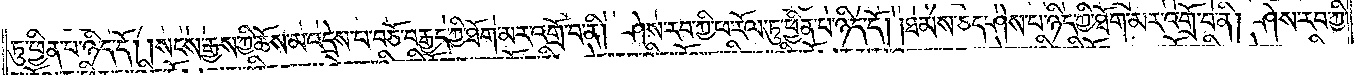ཏུ་ཕྱིན་པ་ཉིད་དོ། །སངས་རྒྱས་ཀྱི་ཆོས་མ་འདྲེས་བ་བཅོ་བརྒྱད་ཀྱི་ཐོག་མར་འགྲོ་བ་ནི། ཤེས་རབ་ཀྱི་ཕ་རོལ་ཏུ་ཕྱིན་པ་ཉིད་དོ། །ཐམས་ཅད་ཤེས་པ་ཉིད་ཀྱི་ཐོག་མར་འགྲོ་བ་ནི། ཤེས་རབ་ཀྱི་
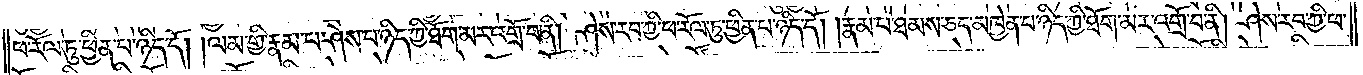ཕ་རོལ་ཏུ་ཕྱིན་པ་ཉིད་དོ། །ལམ་གྱི་རྣམ་པ་ཤེས་པ་ཉིད་ཀྱི་ཐོག་མར་འགྲོ་བ་ནི། ཤེས་རབ་ཀྱི་ཕ་རོལ་ཏུ་ཕྱིན་པ་ཉིད་དོ། །རྣམ་པ་ཐམས་ཅད་མཁྱེན་པ་ཉིད་ཀྱི་ཐོག་མར་འགྲོ་བ་ནི། ཤེས་རབ་ཀྱི་ཕ་
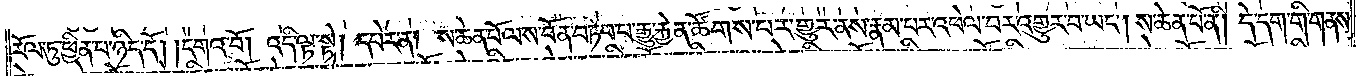རོལ་ཏུ་ཕྱིན་པ་ཉིད་དོ། །དགའ་བོ། འདི་ལྟ་སྟེ། དཔེར་ན། ས་ཆེན་པོ་ལ་ས་བོན་བཏབ་པ་རྒྱུ་རྐྱེན་ཚོགས་པར་གྱུར་ནས་རྣམ་པར་འཕེལ་བར་འགྱུར་བ་ཡང༌། ས་ཆེན་པོ་ནི། དེ་དག་གི་གནས་
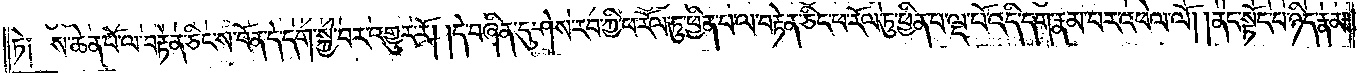ཏེ། ས་ཆེན་པོ་ལ་བརྟེན་ཅིང་ས་བོན་དེ་དག་སྐྱེ་བར་འགྱུར་རོ། །དེ་བཞིན་དུ་ཤེས་རབ་ཀྱི་ཕ་རོལ་ཏུ་ཕྱིན་པ་ལ་བརྟེན་ཅིང་ཕ་རོལ་ཏུ་ཕྱིན་པ་ལྔ་པོ་འདི་དག་རྣམ་པར་འཕེལ་ལོ། །ནང་སྟོང་པ་ཉིད་རྣམ་
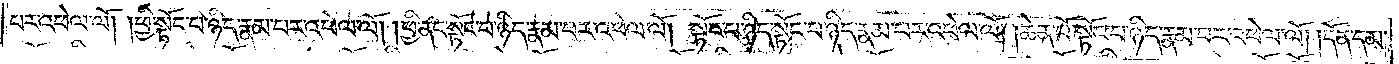པར་འཕེལ་ལོ། །ཕྱི་སྟོང་པ་ཉིད་རྣམ་པར་འཕེལ་ལོ། །ཕྱི་ནང་སྟོང་པ་ཉིད་རྣམ་པར་འཕེལ་ལོ། །སྟོང་པ་ཉིད་སྟོང་པ་ཉིད་རྣམ་པར་འཕེལ་ལོ། །ཆེན་པོ་སྟོང་པ་ཉིད་རྣམ་པར་འཕེལ་ལོ། །དོན་དམ་
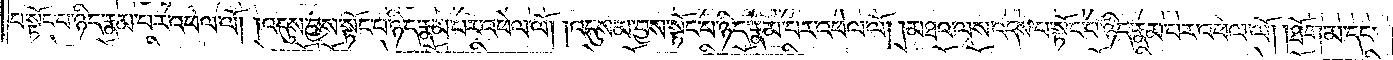པ་སྟོང་པ་ཉིད་རྣམ་པར་འཕེལ་ལོ། །འདུས་བྱས་སྟོང་པ་ཉིད་རྣམ་པར་འཕེལ་ལོ། །འདུས་མ་བྱས་སྟོང་པ་ཉིད་རྣམ་པར་འཕེལ་ལོ། །མཐའ་ལས་འདས་པ་སྟོང་པ་ཉིད་རྣམ་པར་འཕེལ་ལོ། །ཐོག་མ་དང་
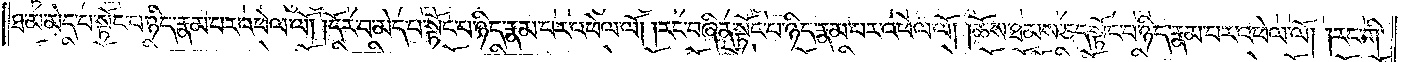ཐ་མ་མེད་པ་སྟོང་པ་ཉིད་རྣམ་པར་འཕེལ་ལོ། །དོར་བ་མེད་པ་སྟོང་པ་ཉིད་རྣམ་པར་འཕེལ་ལོ། །རང་བཞིན་སྟོང་པ་ཉིད་རྣམ་པར་འཕེལ་ལོ། །ཆོས་ཐམས་ཅད་སྟོང་པ་ཉིད་རྣམ་པར་འཕེལ་ལོ། །རང་གི་
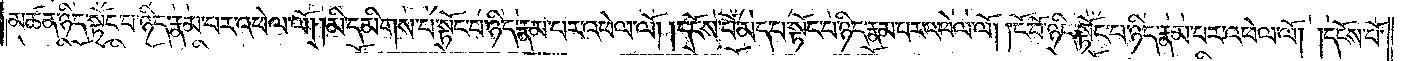མཚན་ཉིད་སྟོང་པ་ཉིད་རྣམ་པར་འཕེལ་ལོ། །མི་དམིགས་པ་སྟོང་པ་ཉིད་རྣམ་པར་འཕེལ་ལོ། །དངོས་པོ་མེད་པ་སྟོང་པ་ཉིད་རྣམ་པར་འཕེལ་ལོ། །ངོ་བོ་ཉིད་སྟོང་པ་ཉིད་རྣམ་པར་འཕེལ་ལོ། །དངོས་པོ་
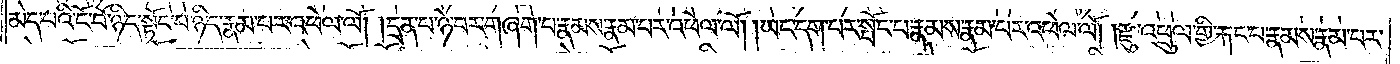མེད་པའི་ངོ་བོ་ཉིད་སྟོང་པ་ཉིད་རྣམ་པར་འཕེལ་ལོ། །དྲན་པ་ཉེ་བར་གཞག་པ་རྣམས་རྣམ་པར་འཕེལ་ལོ། །ཡང་དག་པར་སྤོང་བ་རྣམས་རྣམ་པར་འཕེལ་ལོ། །རྫུ་འཕྲུལ་གྱི་རྐང་པ་རྣམས་རྣམ་པར་
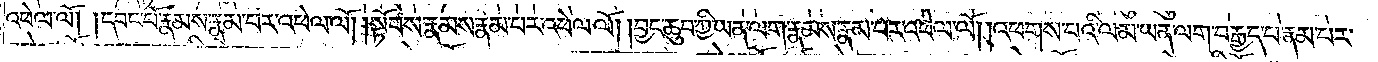འཕེལ་ལོ། །དབང་པོ་རྣམས་རྣམ་པར་འཕེལ་ལོ། །སྟོབས་རྣམས་རྣམ་པར་འཕེལ་ལོ། །བྱང་ཆུབ་ཀྱི་ཡན་ལག་རྣམས་རྣམ་པར་འཕེལ་ལོ། །འཕགས་པའི་ལམ་ཡན་ལག་བརྒྱད་པ་རྣམ་པར་
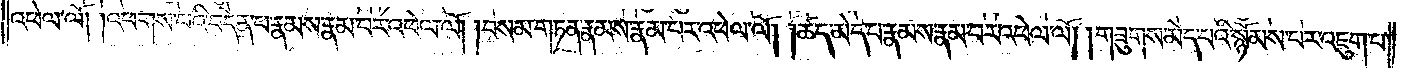འཕེལ་ལོ། །འཕགས་པའི་བདེན་པ་རྣམས་རྣམ་པར་འཕེལ་ལོ། །བསམ་གཏན་རྣམས་རྣམ་པར་འཕེལ་ལོ། །ཚད་མེད་པ་རྣམས་རྣམ་པར་འཕེལ་ལོ། །གཟུགས་མེད་པའི་སྙོམས་པར་འཇུག་པ་
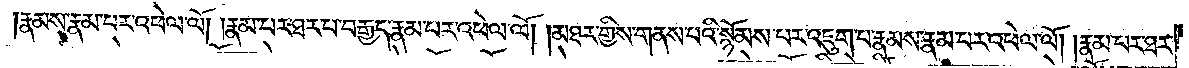རྣམས་རྣམ་པར་འཕེལ་ལོ། །རྣམ་པར་ཐར་པ་བརྒྱད་རྣམ་པར་འཕེལ་ལོ། །མཐར་གྱིས་གནས་པའི་སྙོམས་པར་འཇུག་པ་རྣམས་རྣམ་པར་འཕེལ་ལོ། །རྣམ་པར་ཐར་
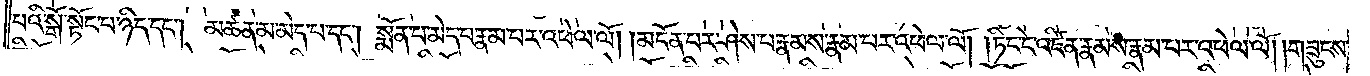པའི་སྒོ་སྟོང་པ་ཉིད་དང༌། མཚན་མ་མེད་པ་དང༌། སྨོན་པ་མེད་པ་རྣམ་པར་འཕེལ་ལོ། །མངོན་པར་ཤེས་པ་རྣམས་རྣམ་པར་འཕེལ་ལོ། ། ཏིང་ངེ་འཛིན་རྣམས་རྣམ་པར་འཕེལ་ལོ། །གཟུངས་
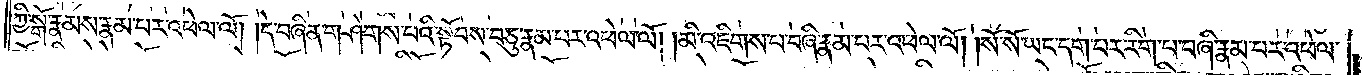ཀྱི་སྒོ་རྣམས་རྣམ་པར་འཕེལ་ལོ། །དེ་བཞིན་གཤེགས་པའི་སྟོབས་བཅུ་རྣམ་པར་འཕེལ་ལོ། །མི་འཇིགས་པ་བཞི་རྣམ་པར་འཕེལ་ལོ། །སོ་སོ་ཡང་དག་པར་རིག་པ་བཞི་རྣམ་པར་འཕེལ་
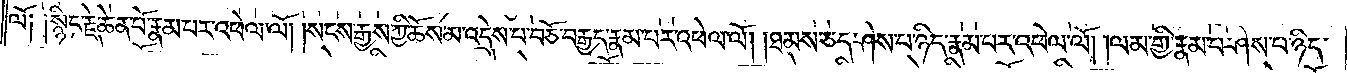ལོ། །སྙིང་རྗེ་ཆེན་པོ་རྣམ་པར་འཕེལ་ལོ། །སངས་རྒྱས་ཀྱི་ཆོས་མ་འདྲེས་པ་བཅོ་བརྒྱད་རྣམ་པར་འཕེལ་ལོ། །ཐམས་ཅད་ཤེས་པ་ཉིད་རྣམ་པར་འཕེལ་ལོ། །ལམ་གྱི་རྣམ་པ་ཤེས་པ་ཉིད་
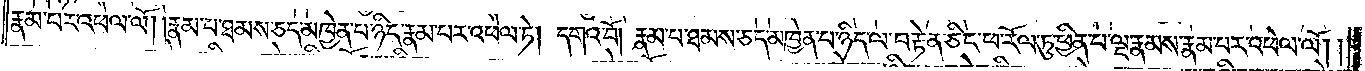རྣམ་པར་འཕེལ་ལོ། །རྣམ་པ་ཐམས་ཅད་མཁྱེན་པ་ཉིད་རྣམ་པར་འཕེལ་ཏེ། དགའ་བོ། རྣམ་པ་ཐམས་ཅད་མཁྱེན་པ་ཉིད་ལ་བརྟེན་ཅིང་ཕ་རོལ་ཏུ་ཕྱིན་པ་ལྔ་རྣམས་རྣམ་པར་འཕེལ་ལོ། །
